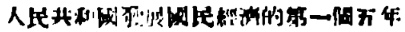人民共和國發展國民經濟的第一個五年
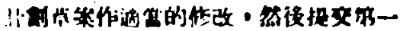計劃草案作適當的修改，然後提交第一
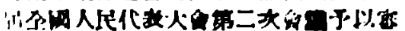屆全國人民代表大會第二次會議予以審
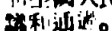議和通過。
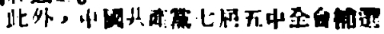此外，中國共產黨七屆五中全會補選
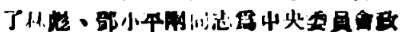了林彪、鄧小平兩同志爲中央委員會政
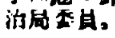治局委員。
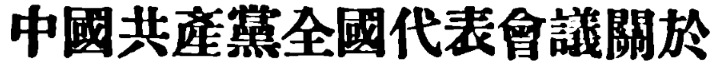中國共產黨全國代表會議關於
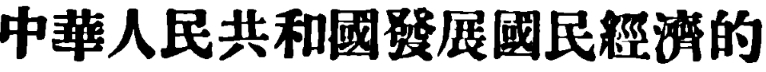中華人民共和國發展國民經濟的
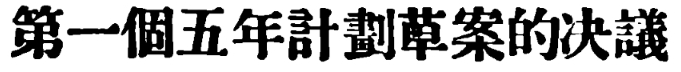第一個五年計劃草案的決議
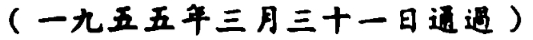（一九五五年三月三十一日通過）
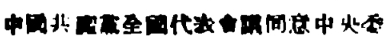中國共產黨全國代表會議同意中央委
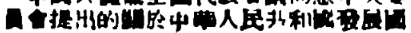員會提出的關於中國人民共和國發展國
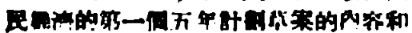民經濟的第一個五年計劃草案的內容和
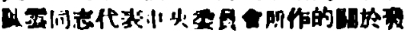陳雲同志代表中央委員會所作的關於發
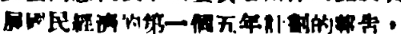展國民經濟的第一個五年計劃的報告，
